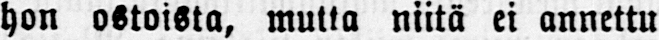hon ostoista, mutta niitä ei annettu
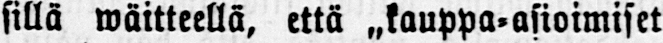sillä wäitteellä, että „kauppa-asioimiset
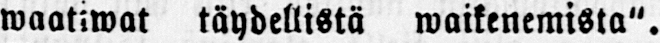waatiwat täydellistä waikenemista".
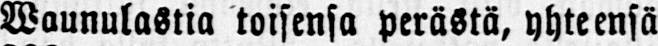Waunulastia toisensa perästä, yhteensä
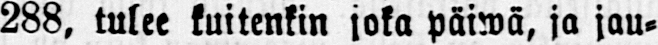288, tulee kuitenkin joka päiwä, ja jau-
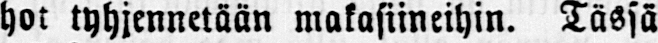hot tyhjennetään makasiineihin. Tässä
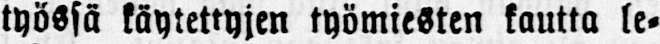työssä käytettyjen työmiesten kautta le-
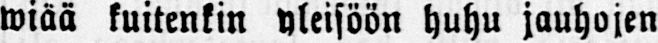wiää kuitenkin yleisöön huhu jauhojen
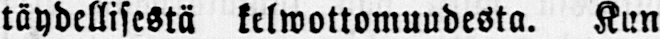täydellisestä kelwottomuudesta. Kun
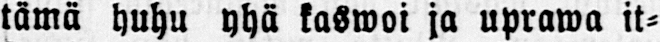tämä huhu yhä kaswoi ja uprawa it-
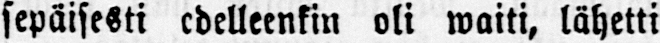sepäisesti edelleenkin oli waiti, lähetti
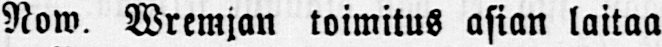Now. Wremjan toimitus asian laitaa
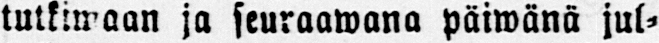tutkimaan ja seuraawana päiwänö jul-
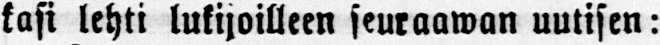kasi lehti lukijoilleen seuraawan uutisen:
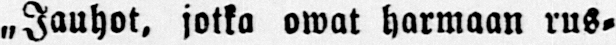„Jauhot, jotka owat harmaan rus-
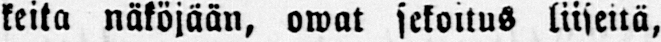keita näköjään, owat sekoitus liiseitä,
